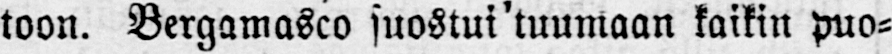toon. Bergamasco suostui tuumaan kaikin puo-
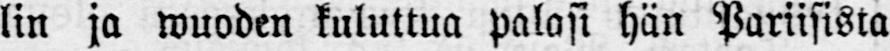lin ja wuoden kuluttua palosi hän Pariisista
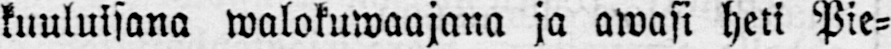kuuluisana walokuwaajana ja awasi heti Pie-
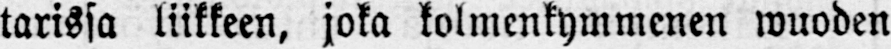tarissa liikkeen, joka kolmenkymmenen wuoden
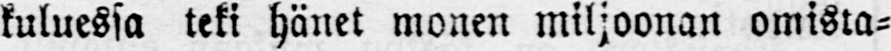kuluessa teki hänet monen miljoonan omista-
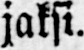jaksi.
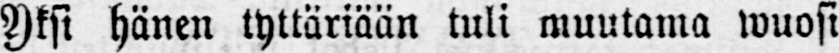Yksi hänen tyttäriään tuli muutama wuosi
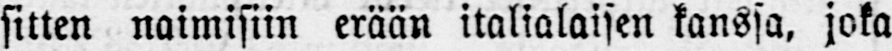sitten naimisiin erään italialaisen kanssa, joka
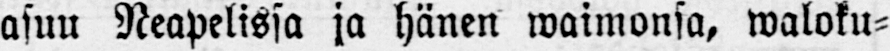asuu Neapelissa ja hänen waimonsa, waloku-
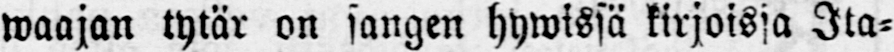waajan tytär on sangen hywissä kirjoissa Ita-
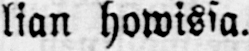lian howissa.
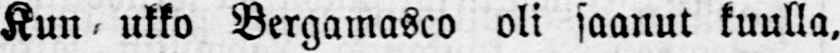Kun ukko Bergamasco oli saanut kuulla,
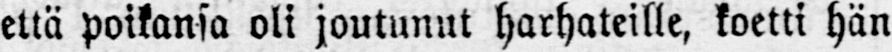että poikansa oli joutunut harhateille, koetti hän
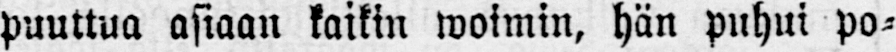puuttua asiaan kaikin woimin, hän puhui po-
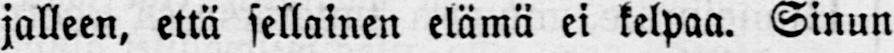jalleen, että sellainen elämä ei kelpaa. Sinun
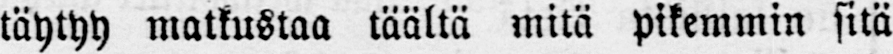täytyy matkustaa täältä mitä pikemmin sitä
